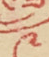༩
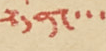ཉིན་་་་
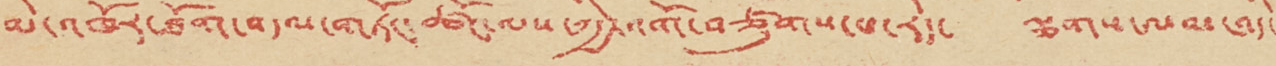མེ་འཁོར་ཐོག་བདལ་གཏོང་ཚོང་ལས་ཀྱི་འགོ་བཙུགས་པ་རེད་ ལྕགས་ལམ་འདི་
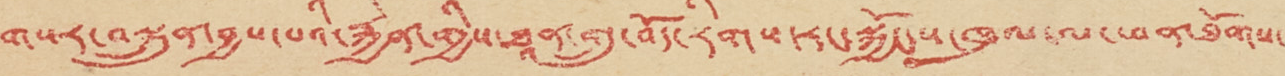གསར་བསྐྲུན་བྱས་པའི་རྐྱེན་གྱིས་ཐཱན་གྲུ་བོད་རིགས་རང་སྐྱོང་ས་ཁུལ་ལ་ཕན་ཐོགས་
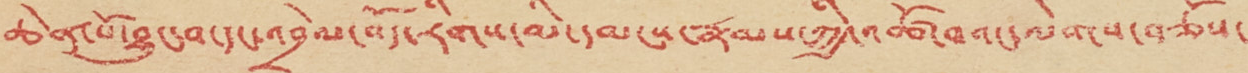ཆེན་པོ་བྱུང་བ་དང་འབྲེལ་བོད་རིགས་མི་དམངས་རྣམས་ཀྱི་འཚོ་བའང་ལེགས་བཅོས་
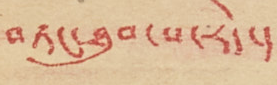བཏང་ཐུབ་པ་རེད་།
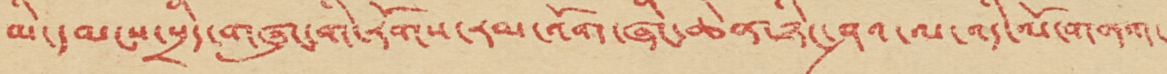• མི་དམངས་སྲིད་གཞུང་གི་རོགས་རམ་འོག་ཞིང་ཆེན་ཤིང་ཤའ་ལ་འདི་ལོ་གནག་
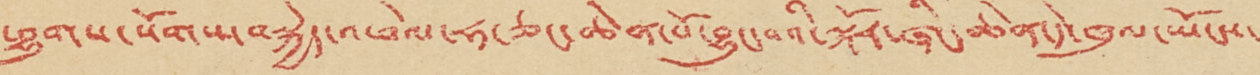ཕྱུགས་སོགས་བསྐྱེད་འཕེལ་ཧ་ཅང་ཆེན་པོ་བྱུང་བའི་སྐོར་ཞིང་ཆེན་དེ་ཁུལ་ཡོངས་
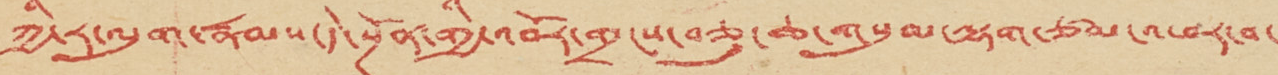ཀྱི་ར་ལུག་རྣམས་དེ་སྔོན་གྱི་འབོར་གྲངས་བཅུ་ཆ་གསུམ་ལྷག་ཙམ་འཕར་བ་
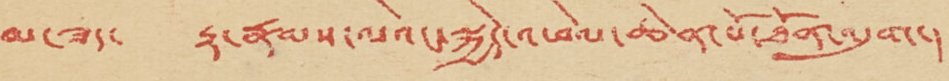མ་ཟད་ རྟ་རྣམས་ལའང་སྐྱེད་འཕེལ་ཆེན་པོ་ཐོན་འདུག་།
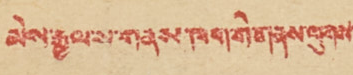མེས་རྒྱལ་ས་གནས་ཁག་གི་གནས་ལུགས་
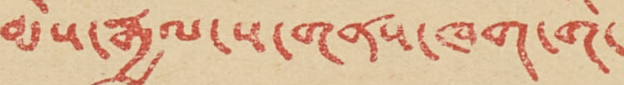མེས་རྒྱལ་ས་གནས་ཁག་གི་
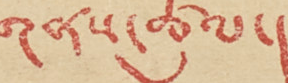གནས་ཚུལ་།
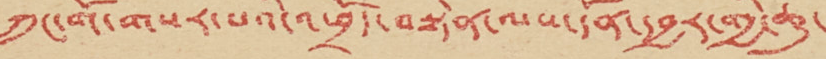ཀྲུང་གོ་གསར་པའི་འཕྲོད་བསྟེན་ལས་དོན་དབྱར་གྱི་ཆུ་
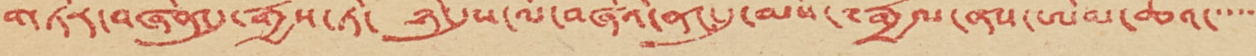གཏེར་བཞིན་དུ་རྒྱས་ཏེ་ ཉེ་དུས་ལོ་བཞིའི་ནང་དུ་མེས་༸རྒྱལ་ནས་ཨེམ་ཆིའི་་་་་
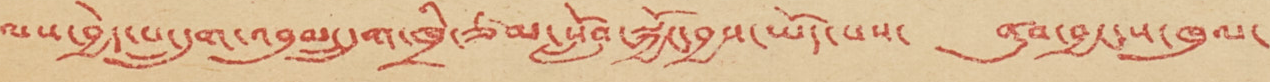ལས་བྱེད་པ་དྲུག་འབུམ་དྲུག་ཁྲི་ཙམ་སློབ་སྐྱོང་བྱས་ཡོད་པས་ ནུབ་བྱང་ས་ཁུལ་
